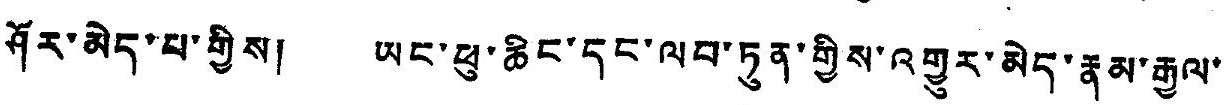ཤོར་མེད་པ་གྱིས། ཡང་ཕུ་ཆིང་དང་ལབ་ཏུན་གྱིས་འགྱུར་མེད་རྣམ་རྒྱལ་
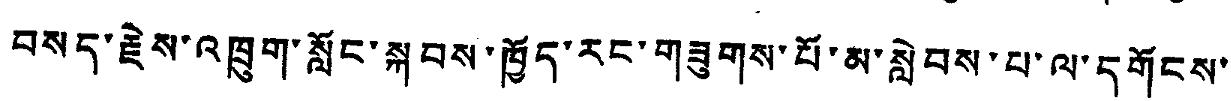བསད་རྗེས་འཁྲུག་སློང་སྐབས་ཁྱོད་རང་གཟུགས་པོ་མ་སླེབས་པ་ལ་དགོངས་
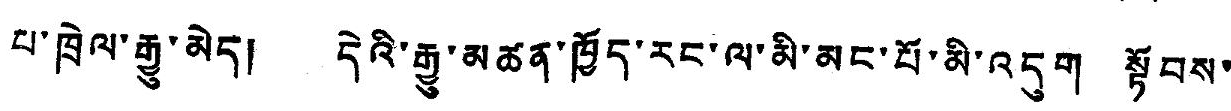པ་ཁྲེལ་རྒྱུ་མེད། དེའི་རྒྱུ་མཚན་ཁྱོད་རང་ལ་མི་མང་པོ་མི་འདུག སྟོབས་
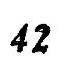42
